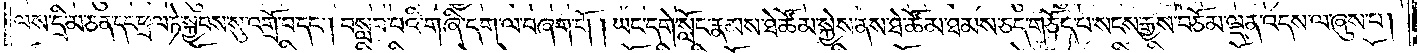ལས་དྲི་མ་ཅན་དང་ཕྲལ་ཏེ་སྐྱབས་སུ་འགྲོ་བ་དང༌། བསླབ་པའི་གཞི་དག་ལ་བཞག་གོ །ཡང་དགེ་སློང་རྣམས་ཐེ་ཚོམ་སྐྱེས་ནས་ཐེ་ཚོམ་ཐམས་ཅད་གཅོད་པ་སངས་རྒྱས་བཅོམ་ལྡན་འདས་ལ་ཞུས་པ།
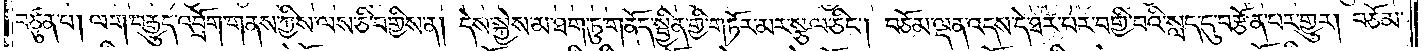བཙུན་པ། ལག་བརྒྱུད་འབྲོག་གནས་ཀྱིས་ལས་ཅི་བགྱིས་ན། དེས་སྐྱེས་མ་ཐག་ཏུ་གནོད་སྦྱིན་གྱི་གཏོར་མར་སྩལ་ཅིང༌། བཅོམ་ལྡན་འདས་དེ་ཐར་པར་བགྱི་བའི་སླད་དུ་བརྩོན་པར་གྱུར། བཅོམ་
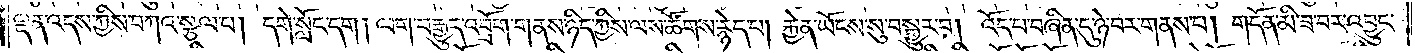ལྡན་འདས་ཀྱིས་བཀའ་སྩལ་པ། དགེ་སློང་དག །ལག་བརྒྱུད་འབྲོག་གནས་ཉིད་ཀྱིས་ལས་ཚོགས་རྙེད་པ། རྐྱེན་ཡོངས་སུ་བསྒྱུར་བ། འོད་པ་བཞིན་དུ་ཉེ་བར་གནས་པ། གདོན་མི་ཟ་བར་འབྱུང་
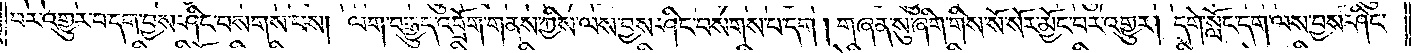བར་འགྱུར་བ་དག་བྱས་ཤིང་བསགས་པས། ལག་བརྒྱུད་འབྲོག་གནས་ཀྱིས་ལས་བྱས་ཤིང་བསགས་པ་དག ། གཞན་སུ་ཞིག་གིས་སོ་སོར་མྱོང་བར་འགྱུར། དགེ་སློང་དག་ལས་བྱས་ཤིང་
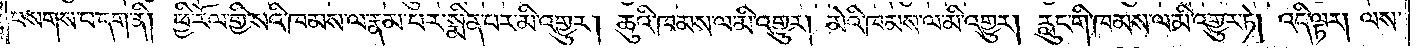བསགས་པ་དག་ནི། ཕྱི་རོལ་གྱི་སའི་ཁམས་ལ་རྣམ་པར་སྨིན་པར་མི་འགྱུར། ཆུའི་ཁམས་ལ་མི་འགྱུར། མེའི་ཁམས་ལ་མི་འགྱུར། རླུང་གི་ཁམས་ལ་མི་འགྱུར་ཏེ། འདི་ལྟར། ལས་
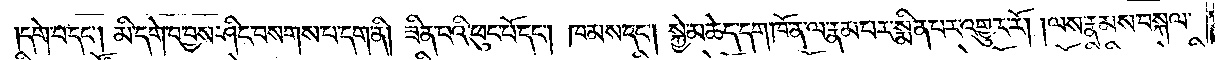དགེ་བ་དང༌། མི་དགེ་བ་བྱས་ཤིང་བསགས་པ་དག་ནི། ཟིན་པའི་ཕུང་པོ་དང༌། ཁམས་དང༌། སྐྱེ་མཆེད་དག་ཁོ་ན་ལ་རྣམ་པར་སྨིན་པར་འགྱུར་རོ། །ལས་རྣམས་བསྐལ་
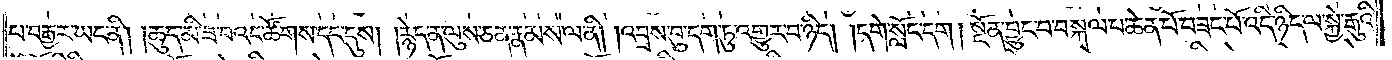པ་བརྒྱར་ཡང་ནི། །ཆུད་མི་ཟ་བའང་ཚོགས་དང་དུས། །རྙེད་ན་ལུས་ཅན་རྣམས་ལ་ནི། །འབྲས་བུ་དག་ཏུ་འགྱུར་བ་ཉིད། །དགེ་སློང་དག །སྔོན་བྱུང་བ་བསྐལ་བ་ཆེན་པོ་བཟང་པོ་འདི་ཉིད་ལ་སྐྱེ་རྒུའི་
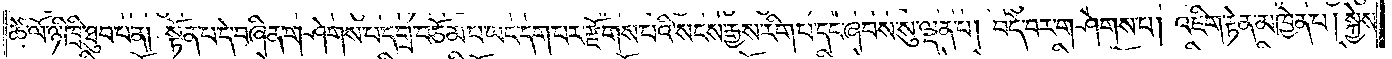ཚེ་ལོ་ཉི་ཁྲི་ཐུབ་པ་ན། སྟོན་པ་དེ་བཞིན་གཤེགས་པ་དགྲ་བཅོམ་པ་ཡང་དག་པར་རྫོགས་པའི་སངས་རྒྱས་རིག་པ་དང་ཞབས་སུ་ལྡན་པ། བདེ་བར་གཤེགས་པ། འཇིག་རྟེན་མཁྱེན་པ། སྐྱེས་
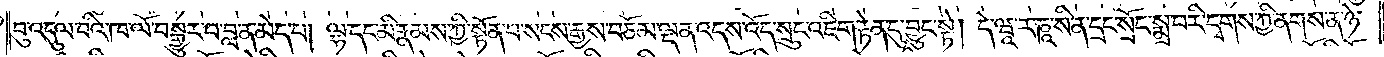བུ་འདུལ་བའི་ཁ་ལོ་བསྒྱུར་བ་བླ་ན་མེད་པ། ལྷ་དང་མི་རྣམས་ཀྱི་སྟོན་པ་སངས་རྒྱས་བཅོམ་ལྡན་འདས་འོད་སྲུང་འཇིག་རྟེན་དུ་བྱུང་སྟེ། དེ་ཝཱ་ར་ཎཱ་སི་ན་དྲང་སྲོང་སྨྲ་བ་རི་དྭགས་ཀྱི་ནགས་ན་ཉེ་
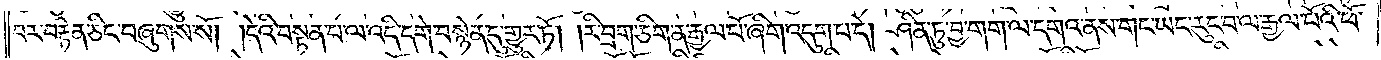བར་བརྟེན་ཅིང་བཞུགས་སོ། །དེའི་བསྟན་པ་ལ་འདི་དགེ་བསྙེན་དུ་གྱུར་ཏོ། །རི་བྲག་ཅིག་ན་རྒྱལ་པོ་ཞིག་འདུག་པ་དེ། ཤིན་ཏུ་བྱ་གག་ལ་དགའ་ནས་གང་ཡང་རུང་བ་ལ་རྒྱལ་པོའི་ཕོ་
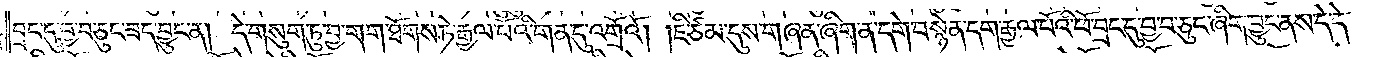བྲང་དུ་བྱ་བ་ཅུང་ཟད་བྱུང་ན། དེ་གསུག་ཏུ་བྱ་གག་ཐོགས་ཏེ་རྒྱལ་པོའི་གན་དུ་འགྲོའོ། །ཇི་ཙམ་དུས་གཞན་ཞིག་ན་དགེ་བསྙེན་དག་རྒྱལ་པོའི་ཕོ་བྲང་དུ་བྱ་བ་ཅུང་ཞིག་བྱུང་ནས་དེ་དེ་
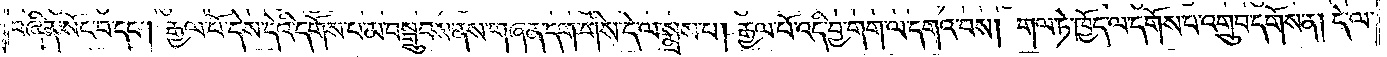བཞིན་སོང་བ་དང༌། རྒྱལ་པོ་དེས་དེའི་དགོས་པ་མ་བསྒྲུབས་ནས་གཞན་དག་གིས་དེ་ལ་སྨྲས་པ། རྒྱལ་པོ་འདི་བྱ་གག་ལ་དགའ་བས། གལ་ཏེ་ཁྱོད་ལ་དགོས་པ་འགྲུབ་དགོས་ན། དེ་ལ་
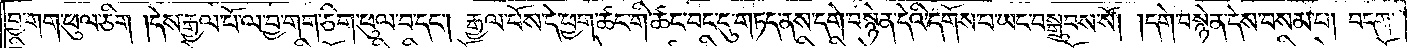བྱ་གག་ཕུལ་ཅིག །དེས་རྒྱལ་པོ་ལ་བྱ་གག་ཅིག་ཕུལ་བ་དང༌། རྒྱལ་པོས་དེ་ཕྱག་ཚང་གི་ཚང་བང་དུ་གཏད་ནས་དགེ་བསྙེན་དེའི་དགོས་པ་ཡང་བསྒྲུབས་སོ། །དགེ་བསྙེན་དེས་བསམ་པ། བདག་
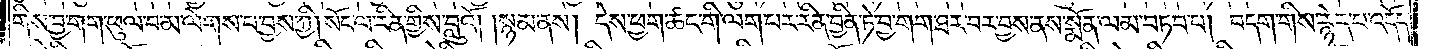གིས་བྱ་གག་ཕུལ་བ་མ་ལེགས་པ་བྱས་ཀྱི། སོང་ལ་རིན་གྱིས་བླུའོ། །སྙམ་ནས། དེས་ཕྱག་ཚང་གི་ལག་པར་རིན་བྱིན་ཏེ་བྱ་གག་ཐར་བར་བྱས་ནས་སྨོན་ལམ་བཏབ་པ། བདག་གིས་རྙེད་པ་འདོད་
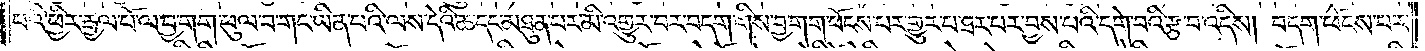པའི་ཕྱིར་རྒྱལ་པོ་ལ་བྱ་གག་ཕུལ་བ་གང་ཡིན་པའི་ལས་དེའི་ཆ་དང་མཐུན་པར་མི་འགྱུར་བར་བདག་གིས་བྱ་གག་ཕོངས་པར་གྱུར་པ་ཐར་པར་བྱས་པའི་དགེ་བའི་རྩ་བ་འདིས། བདག་ཕོངས་པར་
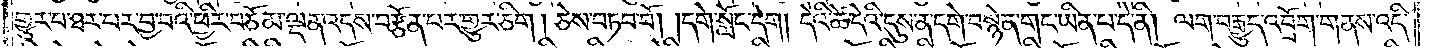གྱུར་པ་ཐར་པར་བྱ་བའི་ཕྱིར་བཅོམ་ལྡན་འདས་བརྩོན་པར་གྱུར་ཅིག ། ཅེས་བཏབ་བོ། །དགེ་སློང་དག །དེའི་ཚེ་དེའི་དུས་ན་དགེ་བསྙེན་གང་ཡིན་པ་དེ་ནི། ལག་བརྒྱུད་འབྲོག་གནས་འདི་
